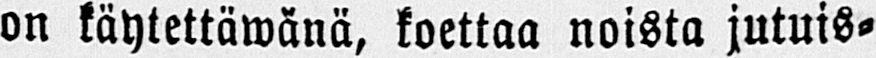on käytettäwänä, koettaa noista jutuis-
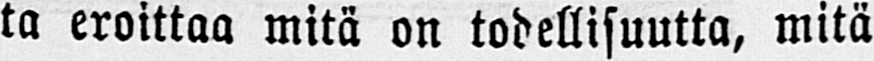ta eroittaa mitä on todellisuutta, mitä
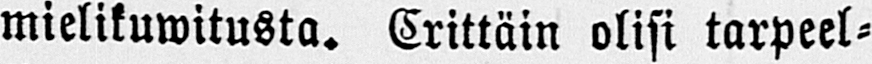mielikuwitusta. Erittäin olisi tarpeel-
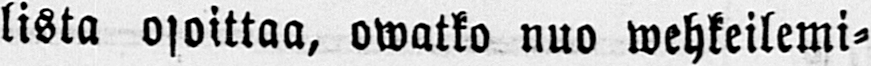lista osoittaa, owatko nuo wehkeilemi-
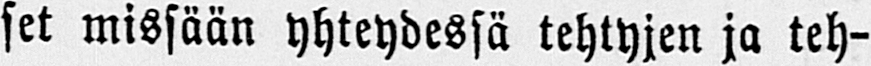set missään yhteydessä tehtyjen ja teh-
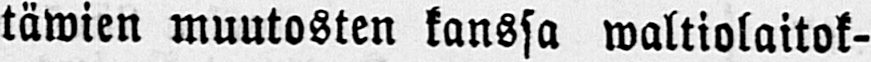täwien muutosten kanssa waltiolaitok-
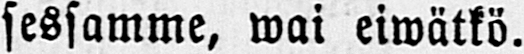sessamme, wai eiwätkö.
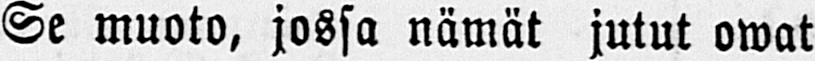Se muoto, jossa nämät jutut owat
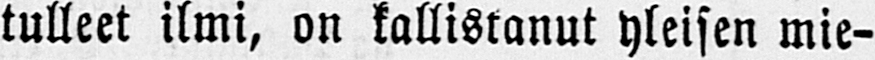tulleet ilmi, on kallistanut yleisen mie-
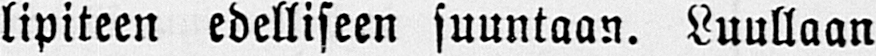lipiteen edelliseen suuntaan. Luullaan
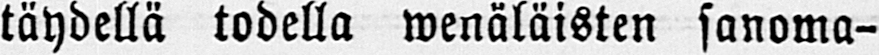täydellä todella wenäläisten sanoma-
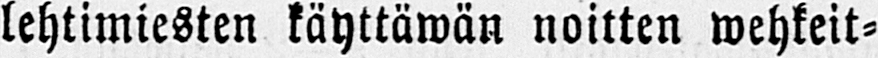lehtimiesten käyttäwän noitten wehkeit-
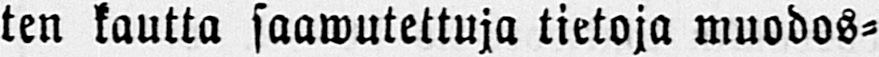ten kautta saawutettuja tietoja wuodos-
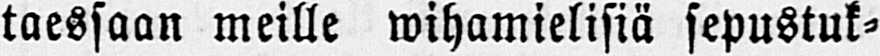taessaan meille wihamielisiä sepustuk-
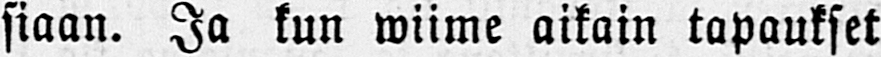siaan. Ja kun wiime aikain tapaukset
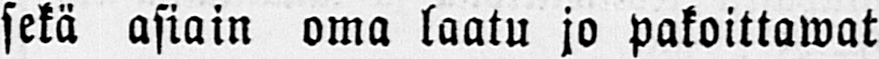sekä asiain oma laatu jo pakotltawat
